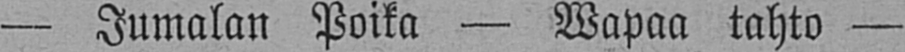— Jumalan Poika — Wapaa tahto —
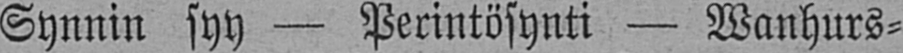Synnin syy — Perintösynti — Wanhurs-
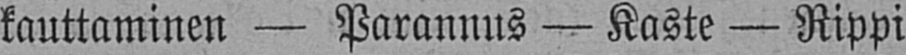kauttaminen — Parannus — Kaste — Rippi
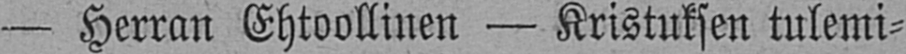— Herran Ehtoollinen — Kristuksen tulemi-
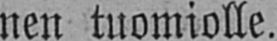nen tuomiolle.
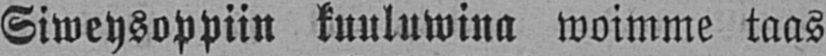Siweysoppiin kuuluwina woimme taas
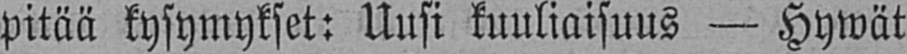pitää kysymykset: Uusi kuuliaisuus — Hywät
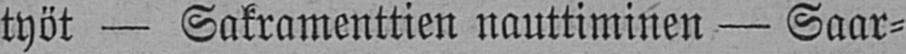työt — Sakramenttien nauttiminen — Saar-
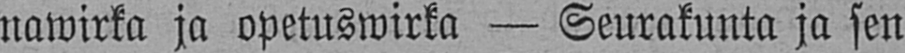nawirka ja opetuswirka — Seurakunta ja sen
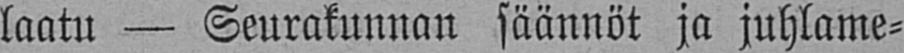laatu — Seurakunnan säännöt ja juhlame-
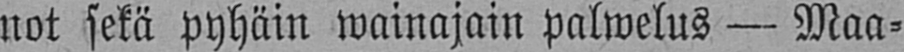not sekä pyhäin wainajain palwelus — Maa-
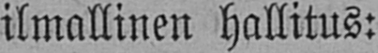ilmallinen hallitus:
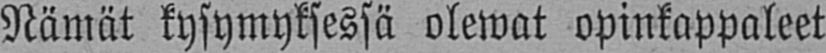Nämät kysymyksessä olewat opinkappaleet
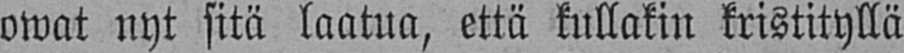owat nyt sitä laatua, että kullakin kristityllä
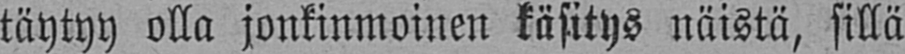täytyy olla jonkinmoinen käsitys näistä, sillä
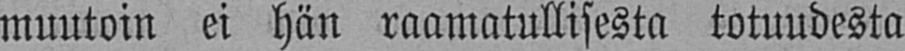muutoin ei hän raamatullisesta totuudesta
